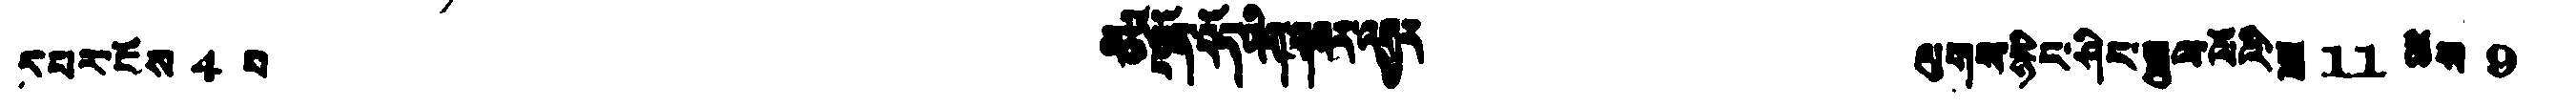དཔར་ངོས 4 པ མཚོ་སྔོན་བོད་ཡིག་གསར་འགྱུར ལུགས་རྙིང་ཤིང་སྦྲུལ་ལོའི་ཟླ 11 ཚེས 9
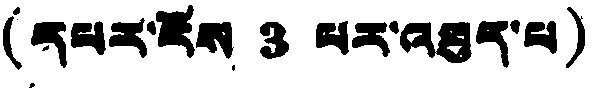(དཔར་ངོས 3 པར་འཐུད་པ)
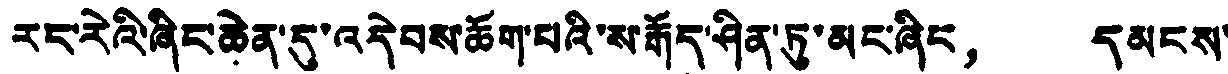རང་རེའི་ཞིང་ཆེན་དུ་འདེབས་ཆོག་པའི་ས་རྒོད་ཤིན་ཏུ་མང་ཞིང， དམངས་
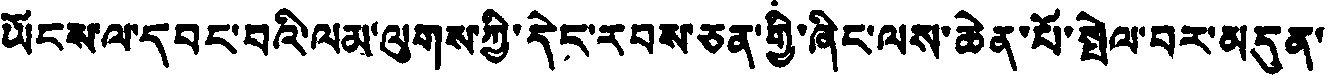ཡོངས་ལ་དབང་བའི་ལམ་ལུགས་ཀྱི་དེད་རབས་ཅན་གྱི་ཞིང་ལས་ཆེན་པོ་སྤེལ་བར་མདུན་
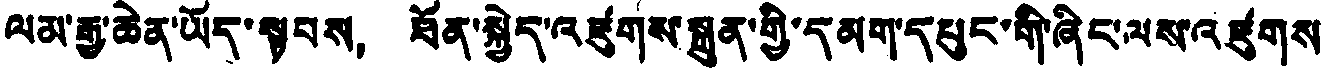ལམ་རྒྱ་ཆེན་ཡོད་སྟབས， ཐོན་སྐྱེད་འཛུགས་སྐྲུན་གྱི་དམག་དཔུང་གི་ཞིང་ལས་འཛུགས
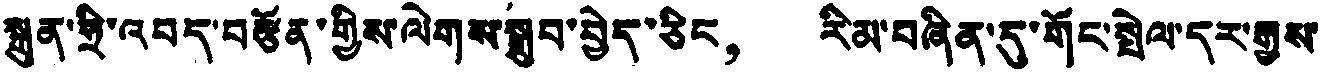སྐྲུན་ཧྲི་འབད་བརྩོན་གྱིས་ལེགས་སྒྲུབ་བྱེད་ཅིང， རིམ་བཞིན་དུ་གོང་སྤེལ་དར་རྒྱས་
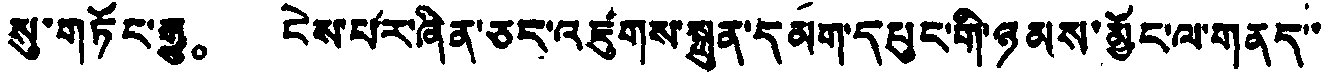སུ་གཏོང་རྒྱུ。 ངེས་པའ་ཞིན་ཅང་འཛུགས་སྐྲུན་དམག་དཔུང་གི་ཉམས་མྱོང་ལ་གནད་་
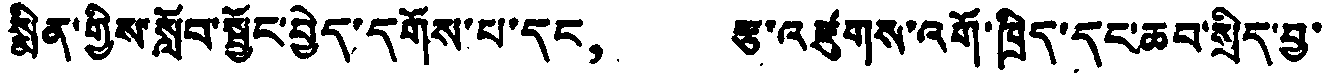སྨིན་གྱིས་སློབ་སྦྱོང་བྱེད་དགོས་པ་དང， རྩ་འཛུགས་འགོ་ཁྲིད་དང་ཆབ་སྲིད་བྱ་
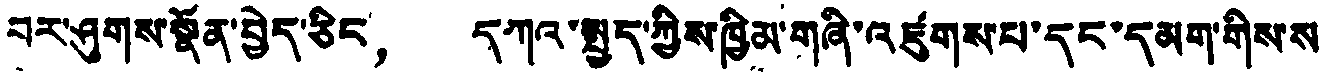བར་ཤུགས་སྣོན་བྱེད་ཅིང， དཀའ་སྤྱད་ཀྱིས་ཁྱིམ་གཞི་འཛུགས་པ་དང་དམག་གིས་ས་
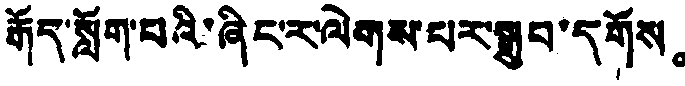རྒོད་སློག་པའི་ཞིང་ར་ལེགས་པར་སྒྲུབ་དགོས。
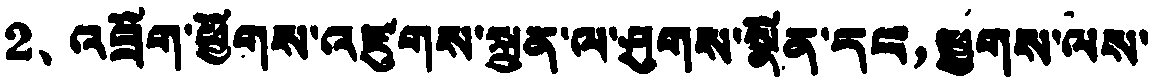2、འབྲོག་ཕྱོགས་འཛུགས་སྐྲུན་ལ་ཤུགས་སྣོན་དང，ཕྱུགས་ལས་
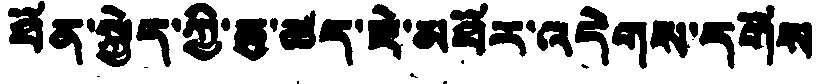ཐོན་སྐྱེད་ཀྱི་ཆུ་ཚད་ཇེ་མཐོར་འདེགས་དགོས
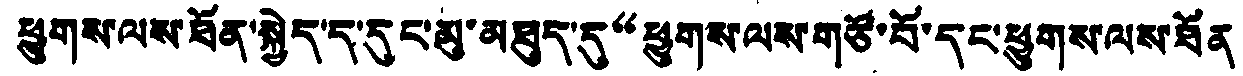ཕྱུགས་ལས་ཐོན་སྐྱེད་ད་དུང་མུ་མཐུད་དུ“ཕྱུགས་ལས་གཙོ་བོ་དང་ཕྱུགས་ལས་ཐོན
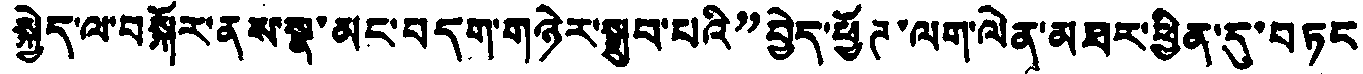སྐྱེད་ལ་བསྐོར་ནས་སྣ་མང་བདག་གཉེར་སྒྲུབ་པའི”བྱེད་ཕྱོཊ་ལག་ལེན་མཐར་ཕྱིན་དུ་བཏང
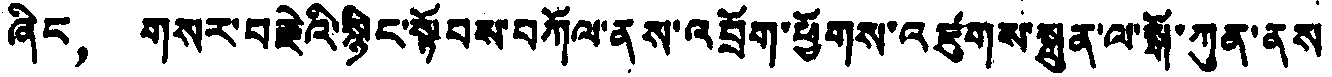ཞིང， གསར་བརྗེའི་སྙིང་སྟོབས་བཀོལ་ནས་འབྲོག་ཕྱོགས་འཛུགས་སྐྲུན་ལ་སྒོ་ཀུན་ནས
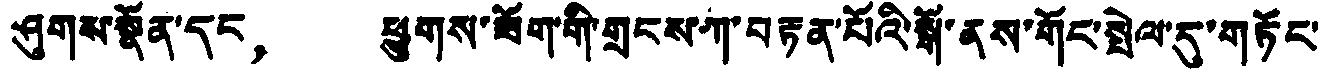ཤུགས་སྣོན་དང， ཕྱུགས་ཟོག་གི་གྲངས་ཀ་བརྟན་པོའི་སྒོ་ནས་གོང་སྤེལ་དུ་གཏོང་
